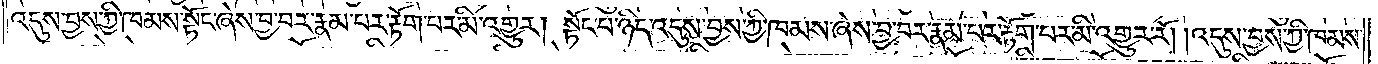འདུས་བྱས་ཀྱི་ཁམས་སྟོང་ཞེས་བྱ་བར་རྣམ་པར་རྟོག་པར་མི་འགྱུར། སྟོང་པ་ཉིད་འདུས་བྱས་ཀྱི་ཁམས་ཞེས་བྱ་བར་རྣམ་པར་རྟོག་པར་མི་འགྱུར་རོ། །འདུས་བྱས་ཀྱི་ཁམས་
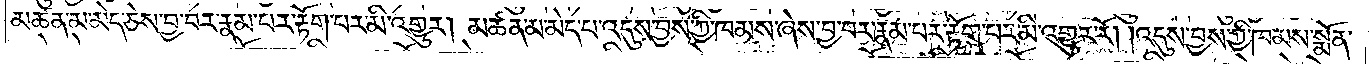མཚན་མ་མེད་ཅེས་བྱ་བར་རྣམ་པར་རྟོག་པར་མི་འགྱུར། མཚན་མ་མེད་པ་འདུས་བྱས་ཀྱི་ཁམས་ཞེས་བྱ་བར་རྣམ་པར་རྟོག་པར་མི་འགྱུར་རོ། །འདུས་བྱས་ཀྱི་ཁམས་སྨོན་
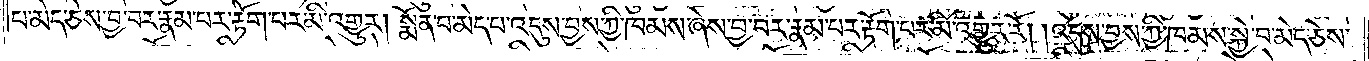པ་མེད་ཅེས་བྱ་བར་རྣམ་པར་རྟོག་པར་མི་འགྱུར། སྨོན་པ་མེད་པ་འདུས་བྱས་ཀྱི་ཁམས་ཞེས་བྱ་བར་རྣམ་པར་རྟོག་པར་མི་འགྱུར་རོ། །འདུས་བྱས་ཀྱི་ཁམས་སྐྱེ་བ་མེད་ཅེས་
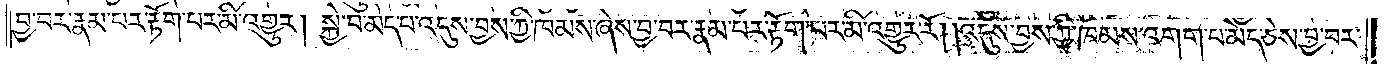བྱ་བར་རྣམ་པར་རྟོག་པར་མི་འགྱུར། སྐྱེ་བ་མེད་པ་འདུས་བྱས་ཀྱི་ཁམས་ཞེས་བྱ་བར་རྣམ་པར་རྟོག་པར་མི་འགྱུར་རོ། །འདུས་བྱས་ཀྱི་ཁམས་འགག་པ་མེད་ཅེས་བྱ་བར་
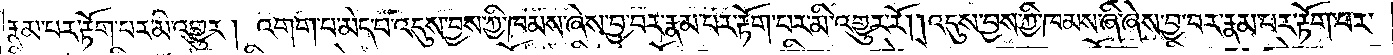རྣམ་པར་རྟོག་པར་མི་འགྱུར། འགག་པ་མེད་པ་འདུས་བྱས་ཀྱི་ཁམས་ཞེས་བྱ་བར་རྣམ་པར་རྟོག་པར་མི་འགྱུར་རོ། །འདུས་བྱས་ཀྱི་ཁམས་ཞི་ཞེས་བྱ་བར་རྣམ་པར་རྟོག་པར་
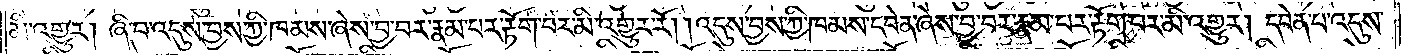མི་འགྱུར། ཞི་བ་འདུས་བྱས་ཀྱི་ཁམས་ཞེས་བྱ་བར་རྣམ་པར་རྟོག་པར་མི་འགྱུར་རོ། །འདུས་བྱས་ཀྱི་ཁམས་དབེན་ཞེས་བྱ་བར་རྣམ་པར་རྟོག་པར་མི་འགྱུར། དབེན་པ་འདུས་
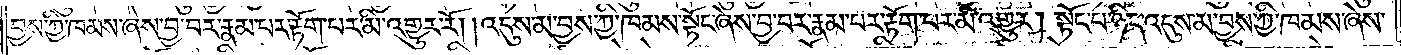བྱས་ཀྱི་ཁམས་ཞེས་བྱ་བར་རྣམ་པར་རྟོག་པར་མི་འགྱུར་རོ། །འདུས་མ་བྱས་ཀྱི་ཁམས་སྟོང་ཞེས་བྱ་བར་རྣམ་པར་རྟོག་པར་མི་འགྱུར། སྟོང་པ་ཉིད་འདུས་མ་བྱས་ཀྱི་ཁམས་ཞེས་
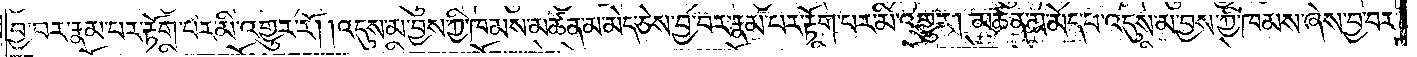བྱ་བར་རྣམ་པར་རྟོག་པར་མི་འགྱུར་རོ། །འདུས་མ་བྱས་ཀྱི་ཁམས་མཚན་མ་མེད་ཅེས་བྱ་བར་རྣམ་པར་རྟོག་པར་མི་འགྱུར། མཚན་མ་མེད་པ་འདུས་མ་བྱས་ཀྱི་ཁམས་ཞེས་བྱ་བར་
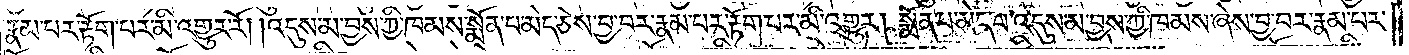རྣམ་པར་རྟོག་པར་མི་འགྱུར་རོ། །འདུས་མ་བྱས་ཀྱི་ཁམས་སྨོན་པ་མེད་ཅེས་བྱ་བར་རྣམ་པར་རྟོག་པར་མི་འགྱུར། སྨོན་པ་མེད་པ་འདུས་མ་བྱས་ཀྱི་ཁམས་ཞེས་བྱ་བར་རྣམ་པར་
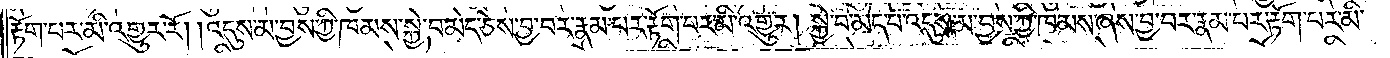རྟོག་པར་མི་འགྱུར་རོ། །འདུས་མ་བྱས་ཀྱི་ཁམས་སྐྱེ་བ་མེད་ཅེས་བྱ་བར་རྣམ་པར་རྟོག་པར་མི་འགྱུར། སྐྱེ་བ་མེད་པ་འདུས་མ་བྱས་ཀྱི་ཁམས་ཞེས་བྱ་བར་རྣམ་པར་རྟོག་པར་མི་
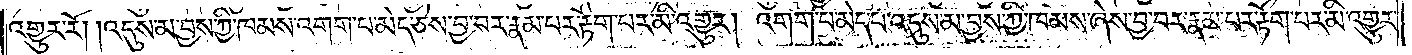འགྱུར་རོ། །འདུས་མ་བྱས་ཀྱི་ཁམས་འགག་པ་མེད་ཅེས་བྱ་བར་རྣམ་པར་རྟོག་པར་མི་འགྱུར། འགག་པ་མེད་པ་འདུས་མ་བྱས་ཀྱི་ཁམས་ཞེས་བྱ་བར་རྣམ་པར་རྟོག་པར་མི་འགྱུར་
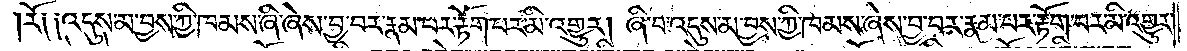རོ༏ ༏འདུས་མ་བྱས་ཀྱི་ཁམས་ཞི་ཞེས་བྱ་བར་རྣམ་པར་རྟོག་པར་མི་འགྱུར། ཞི་བ་འདུས་མ་བྱས་ཀྱི་ཁམས་ཞེས་བྱ་བར་རྣམ་པར་རྟོག་པར་མི་འགྱུར་
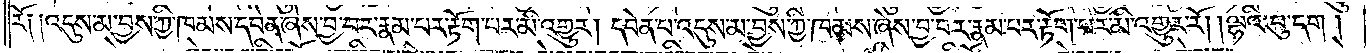རོ༏ ༏འདུས་མ་བྱས་ཀྱི་ཁམས་དབེན་ཞེས་བྱ་བར་རྣམ་པར་རྟོག་པར་མི་འགྱུར། དབེན་པ་འདུས་མ་བྱས་ཀྱི་ཁམས་ཞེས་བྱ་བར་རྣམ་པར་རྟོག་པར་མི་འགྱུར་རོ། །ལྷའི་བུ་དག་
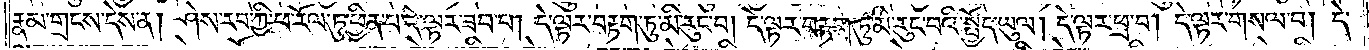རྣམ་གྲངས་དེས་ན། ཤེས་རབ་ཀྱི་ཕ་རོལ་ཏུ་ཕྱིན་པ་དེ་ལྟར་ཟབ་པ། དེ་ལྟར་བརྟག་ཏུ་མི་རུང་བ། དེ་ལྟར་བརྟག་ཏུ་མི་རུང་བའི་སྤྱོད་ཡུལ། དེ་ལྟར་ཕྲ་བ། དེ་ལྟར་གསལ་པ། དེ་
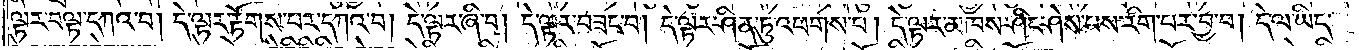ལྟར་བལྟ་དཀའ་བ། དེ་ལྟར་རྟོགས་པར་དཀའ་བ། དེ་ལྟར་ཞི་བ། དེ་ལྟར་བཟང་བ། དེ་ལྟར་ཤིན་ཏུ་འཕགས་པ། དེ་ལྟར་མཁས་ཤིང་ཤེས་པས་རིག་པར་བྱ་བ། དེ་ལ་ཡིད་
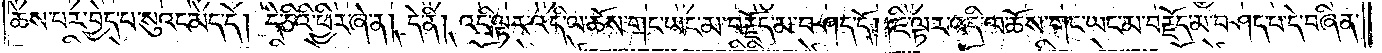ཆེས་པར་བྱེད་པ་སུའང་མེད་དེ། དེ་ཅིའི་ཕྱིར་ཞེ་ན། དེ་ནི། འདི་ལྟར་འདི་ལ་ཆོས་གང་ཡང་མ་བརྗོད་མ་བཤད་དོ། །ཇི་ལྟར་འདི་ལ་ཆོས་གང་ཡང་མ་བརྗོད་མ་བཤད་པ་དེ་བཞིན་
